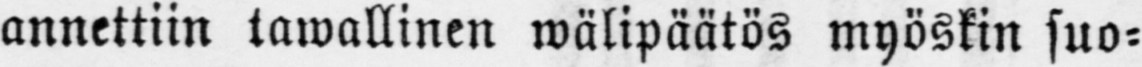annettiin tawallinen wälipäätös myöskin suo-
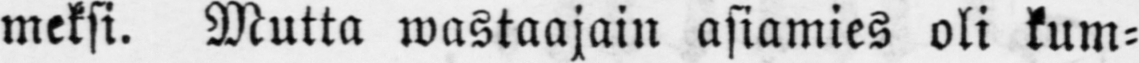meksi. Mutta wastaajain asiamies oli kum-
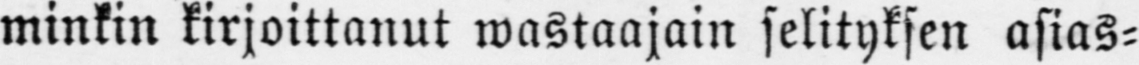minkin kirjoittanut wastaajain selityksen asias-
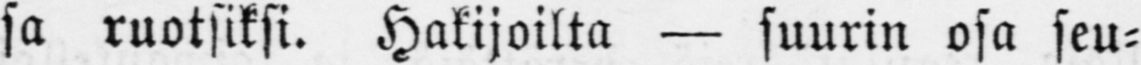sa ruotsiksi. Hakijoilta — suurin osa seu-
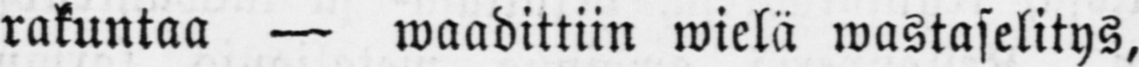rakuntaa — waadittiin wielä wastaselitys,
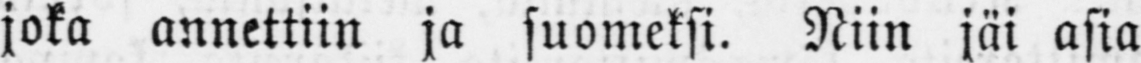joka annettiin ja suomeksi. Niin jäi asia
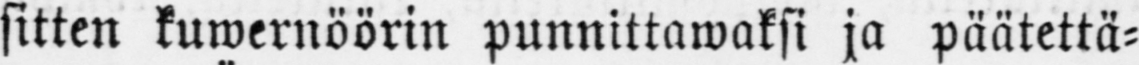sitten kuwernöörin punnittawaksi ja päätettä-
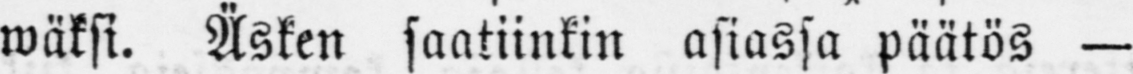wäksi. Äsken saatiinkin asiassa päätös —
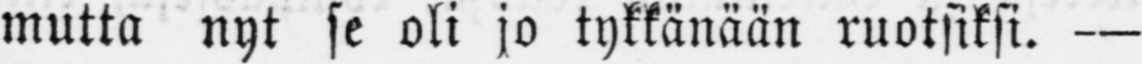mutta nyt se oli jo tykkänään ruotsiksi. —
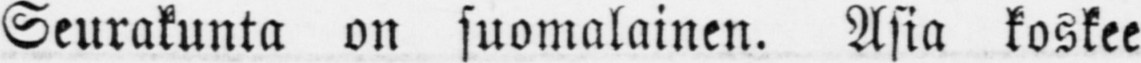Seurakunta on suomalainen. Asia koskee
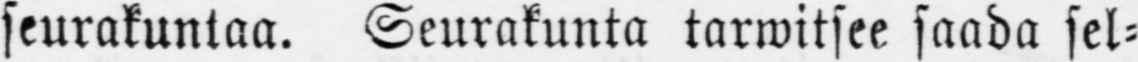seurakuntaa. Seurakunta tarwitsee saada sel-
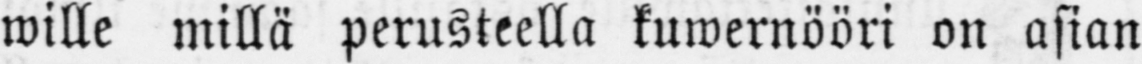wille millä perusteella kuwernööri on asian
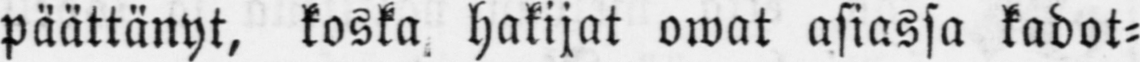päättänyt, koska hakijat owat asiassa kadot-
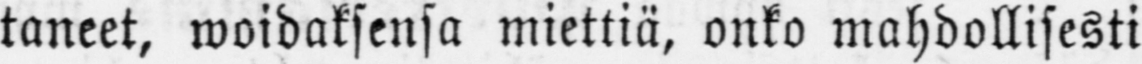taneet, woidaksensa miettiä, onko mahdollisesti
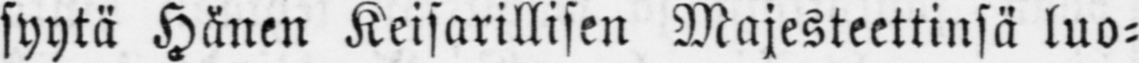syytä Hänen Keisarillisen Majesteettinsä luo-
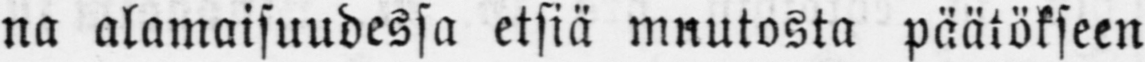na alamaisuudessa etsiä mnutosta päätökseen
